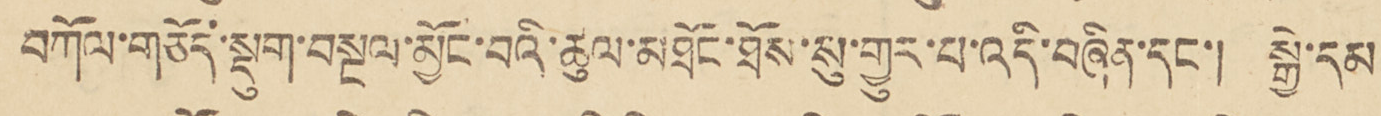བཀོལ་གཅོད་སྡུག་བསྔལ་མྱོང་བའི་ཚུལ་མཐོང་ཐོས་སུ་གྱུར་པ་འདི་བཞིན་དང་། སྒྱེ་དམ་
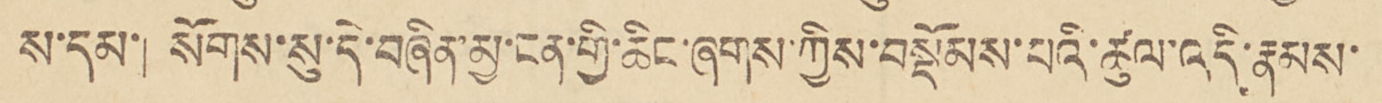ས་དམ་། སོགས་སུ་དེ་བཞིན་མྱ་ངན་གྱི་ཆིང་ཞགས་ཀྱིས་བསྡོམས་པའི་ཚུལ་འདི་རྣམས་
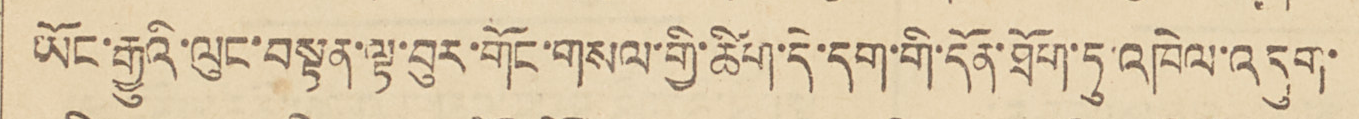ཡོང་རྒྱུའི་ལུང་བསྟན་ལྟ་བུར་གོང་གསལ་གྱི་ཚིག་དེ་དག་གོ་དོན་ཐོག་ཏུ་འཁེལ་འདུག་
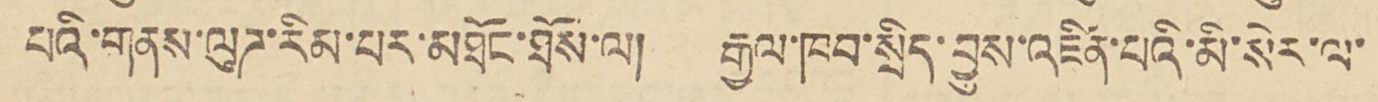པའི་གནས་ལུཌ་རིམ་པར་མཐོང་ཐོས་ལ། རྒྱལ་ཁབ་སྲིད་བྱུས་འཛིན་པའི་མི་སེར་ལ་
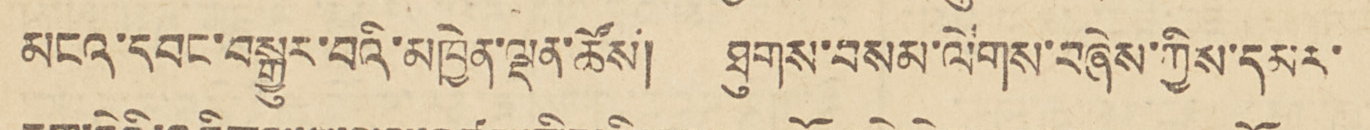མངའ་དབང་བསྒྱུར་བའི་མཁྱེན་ལྡན་ཚོས། ཐུགས་བསམ་ལེགས་བཞེས་ཀྱིས་དམར་
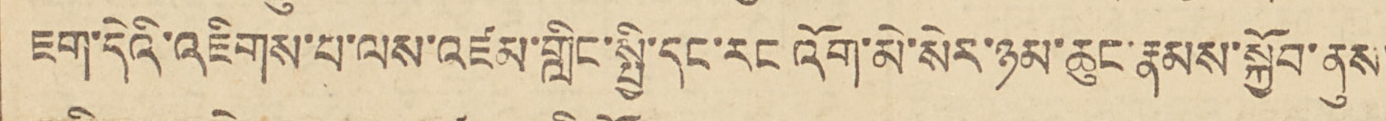ཇག་དེའི་འཇིགས་པ་ལས་འཛམ་གླིང་སྤྱི་དང་རང་འོག་མེ་སེར་ཉམ་ཆུང་རྣམས་སྐྱོབ་ནུས་
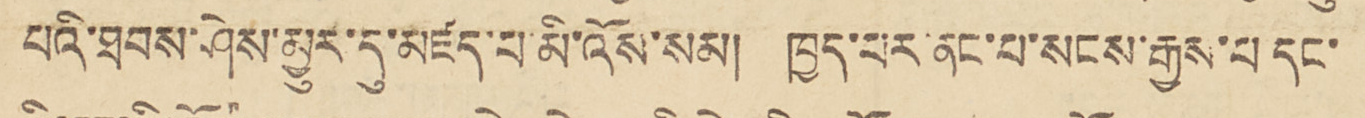པའི་ཐབས་ཤེས་མྱུར་དུ་མཛད་པ་མི་འོས་སམ། ཁྱད་པར་ནང་པ་སངས་རྒྱས་པ དང་
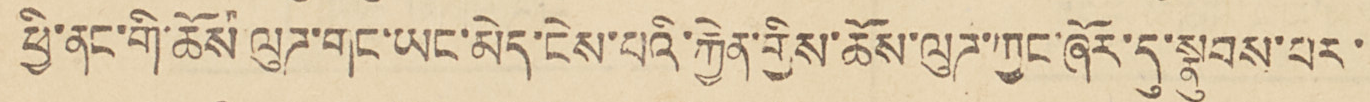ཕྱི་ནང་གི་ཆོས་ལུཌ་གང་ཡང་མེད་ངེས་པའི་རྐྱེན་གྱིས་ཆོས་ལུཌ་ཀྱང་ཞོར་དུ་སྣུབས་པར་
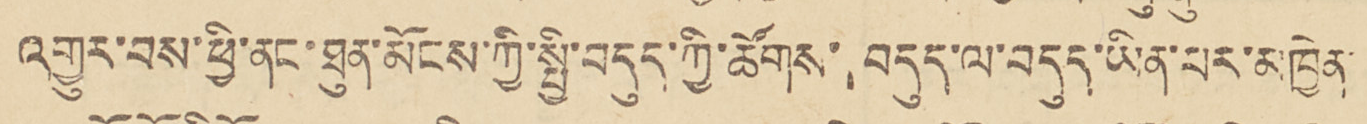འགྱུར་བས་ཕྱི་ནང་ཐུན་མོངས་ཀྱི་སྤྱི་བདུད་ཀྱི་ཚོགས། བདུད་ལ་བདུད་ཡིན་པར་མཁྱེན་
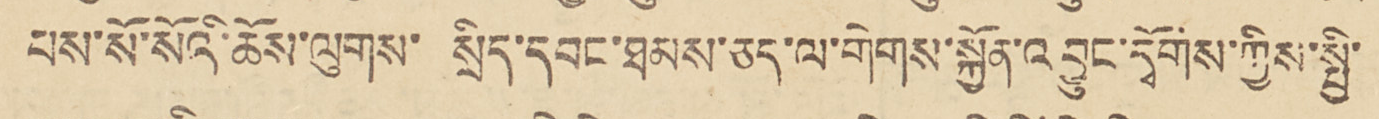པས་སོ་སོའི་ཆོས་ལུགས་སྲིད་དབང་ཐམས་ཅད་ལ་གེགས་སྐྱོན་འབྱུང་དྭོགས་ཀྱིས་སྤྱི་
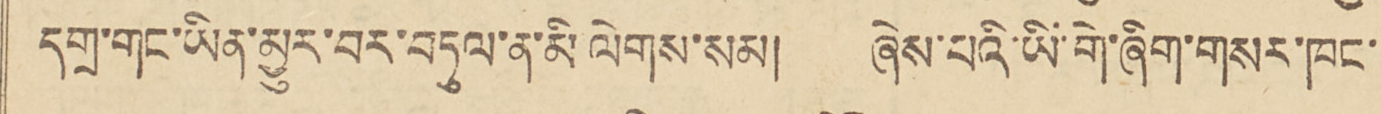དགྲ་གང་ཡིན་མྱུར་བར་བཏུལ་ན་མི་ལེགས་སམ། ཞེས་པའི་ཡི་གེ་ཞིག་གསར་ཁང་
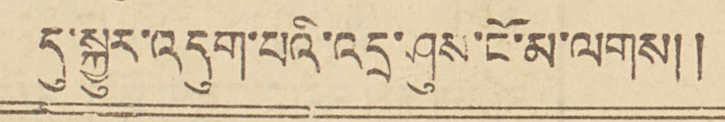དུ་སྐྱུར་འདུག་པའི་འདྲ་ཤུས་ངོ་མ་ལགས།
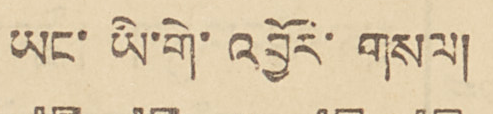ཡང་ཡི་གེ་འབྱོར་གསལ།
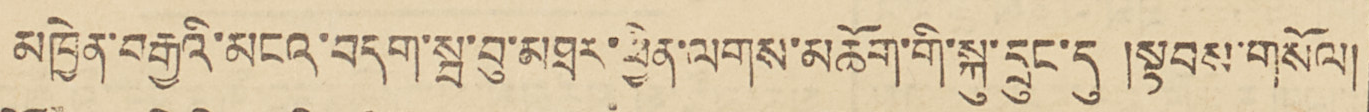མཁྱེན་བརྒྱའི་མངའ་བདག་སྦ་བུ་མཐར་ཕྱིན་ལགས་མཆོག་གི་སྐུ་དྲུང་དུ །སྟབས་གསོལ།
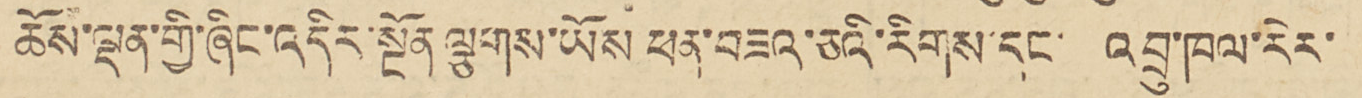ཆོས་ལྡན་གྱི་ཞིང་འདིར་སྔོན་ལྕགས་ཡོས ཕན་བཟའ་ཅའི་རིགས་དང་ འབྲུ་ཁལ་རེར་
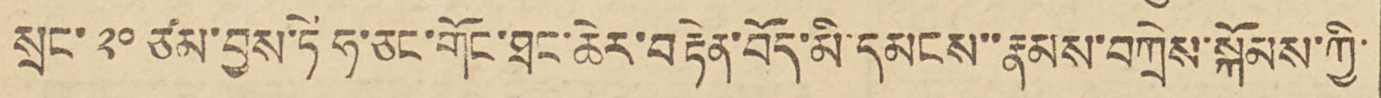སྲང་ ༢༠ ཙམ་བྱས་ཏེ ཧ་ཅང་གོང་ཐང་ཆེར་བརྟེན་བོད་མི་དམངས་་རྣམས་བཀྲེས་སྐོབས་ཀྱི་
